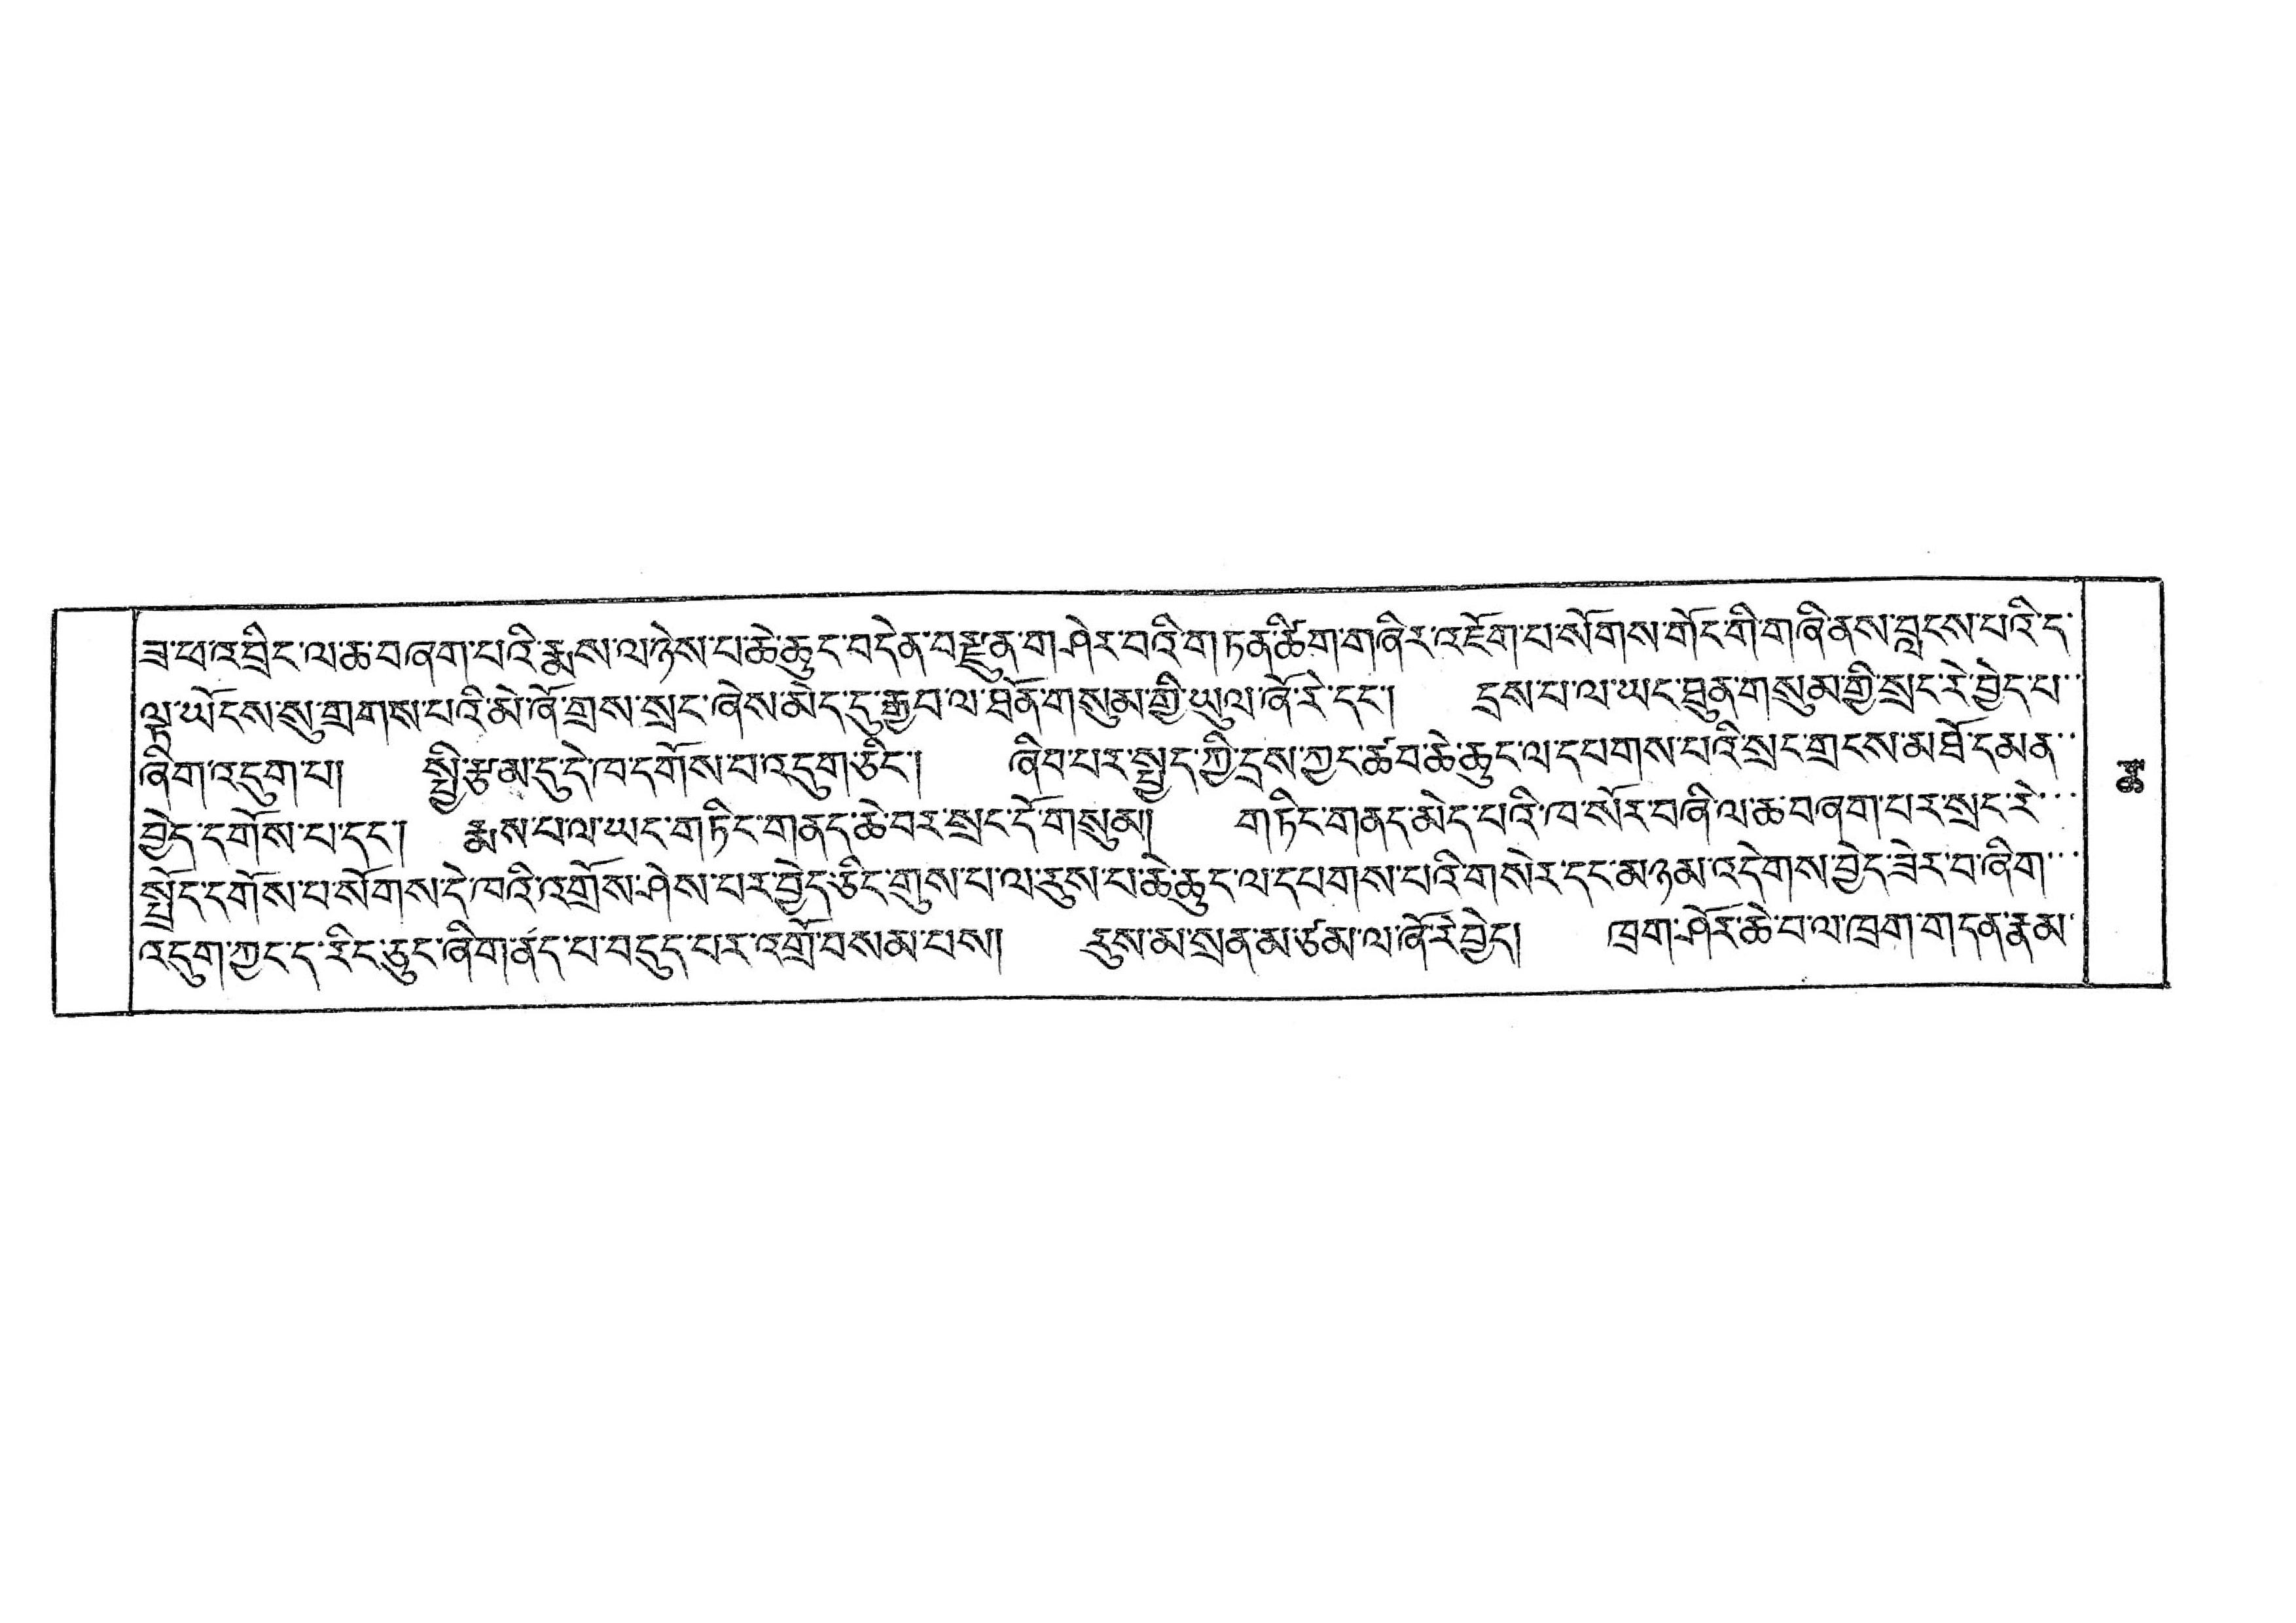ཟ་ཕ་འབྲིང་ལ་ཆ་བཞག་པའི་རྨས་ལ་ཉེས་པ་ཆེ་ཆུང་བདེན་བརྫུན་གཤེར་བའི་གཏན་ཚིག་གཞིར་འཇོག་པ་སོགས་གོང་གི་གཞི་ནས་བླངས་པའི་ད་
ལྟ་ཡོངས་སུ་གྲགས་པའི་མེ་ཞོ་གྲས་སྲང་ཞེས་མོད་དུ་རྒྱབ་ལ་ཐོན་གསུམ་གྱིས་ཡུལ་ཞོ་རེ་དང་། དྲས་པ་ལ་ཡང་ཐུག་གསུམ་གྱི་སྲང་རེ་བྱེད་པ་་
ཞིག་འདུག་པ། སྤྱི་རྩམ་དུ་དེ་ཁ་དགོས་པ་འདུག་ཅིང་། ཞིབ་པར་སྤྱད་ཀྱི་དྲས་ཀྱང་ཚབ་ཆེ་ཆུང་ལ་དཔགས་པའི་སྲང་གྲངས་མཐོ་དམན་་
བྱེད་དགོས་པ་དང་། རྨས་པ་ལ་ཡང་གཏིང་གནད་ཆེ་བར་སྲང་དོ་གསུམ། གཏིང་གནད་མེད་པའི་ཁ་སོར་བཞི་ལ་ཆ་བཞག་པར་སྲང་རེ་་་
སྤྲོད་དགོས་པ་སོགས་དེ་ཁའི་འགྲོས་ཤེས་པར་བྱེད་ཅིང་གུས་པ་ལ་རུས་པ་ཆེ་ཆུང་ལ་དཔགས་པའི་གསེར་དང་མཉམ་འདེགས་བྱེད་ཟེར་བ་ཞིག་་་
འདུག་ཀྱང་ད་རིང་ཅུང་ཞིག་ནད་པ་བདུད་པར་འགྲོ་བསམ་པས། རུས་མ་སྲན་མ་ཙམ་ལ་ཞོ་རེ་བྱེད། ཁྲག་ཤོར་ཆེ་བ་ལ་ཁྲག་གདན་རྣམ་
